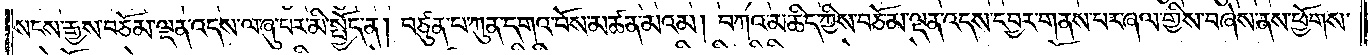སངས་རྒྱས་བཅོམ་ལྡན་འདས་ལ་ཞུ་བར་མི་སྤྱོད་ན། བཙུན་པ་ཀུན་དགའ་བོས་མཚན་མའམ། བཀའ་མཆིད་ཀྱིས་བཅོམ་ལྡན་འདས་དབྱར་གནས་པར་ཞལ་གྱིས་བཞེས་ནས་ཕྱོགས་
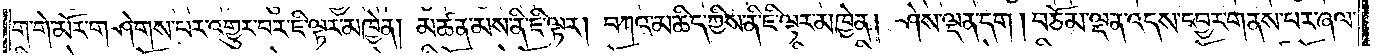ག་གེ་མོར་གཤེགས་པར་འགྱུར་བར་ཇི་ལྟར་མཁྱེན། མཚན་མས་ནི་ཇི་ལྟར། བཀའ་མཆིད་ཀྱིས་ནི་ཇི་ལྟར་མཁྱེན། ཤེས་ལྡན་དག །བཅོམ་ལྡན་འདས་དབྱར་གནས་པར་ཞལ་
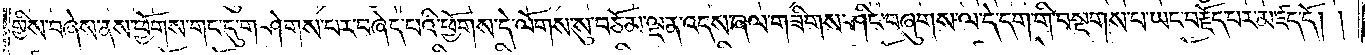གྱིས་བཞེས་ནས་ཕྱོགས་གང་དུ་གཤེགས་པར་བཞེད་པའི་ཕྱོགས་དེ་ལོགས་སུ་བཅོམ་ལྡན་འདས་ཞལ་གཟིགས་ཤིང་བཞུགས་ལ་དེ་དག་གི་བསྔགས་པ་ཡང་བརྗོད་པར་མཛད་དོ། །
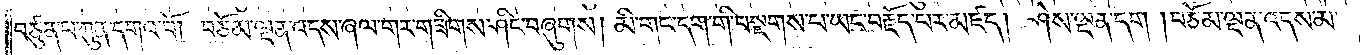བཙུན་པ་ཀུན་དགའ་བོ། བཅོམ་ལྡན་འདས་ཞལ་གར་གཟིགས་ཤིང་བཞུགས། མི་གང་དག་གི་བསྔགས་པ་ཡང་བརྗོད་པར་མཛད། ཤེས་ལྡན་དག །བཅོམ་ལྡན་འདས་མ་
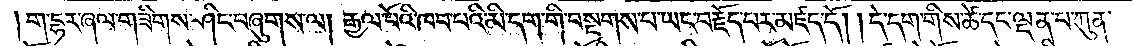ག་དྷར་ཞལ་གཟིགས་ཤིང་བཞུགས་ལ། རྒྱལ་པོའི་ཁབ་པའི་མི་དག་གི་བསྔགས་པ་ཡང་བརྗོད་པར་མཛད་དོ། །དེ་དག་གིས་ཚེ་དང་ལྡན་པ་ཀུན་
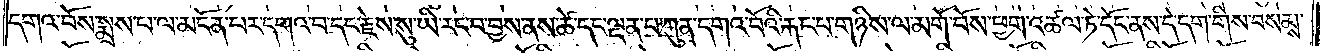དགའ་བོས་སྨྲས་པ་ལ་མངོན་པར་དགའ་བ་དང་རྗེས་སུ་ཡི་རང་བ་བྱས་ནས་ཚེ་དང་ལྡན་པ་ཀུན་དགའ་བོའི་རྐང་པ་གཉིས་ལ་མགོ་བོས་ཕྱག་འཚལ་ཏེ་དོང་ནས་དེ་དག་གིས་བསམས་
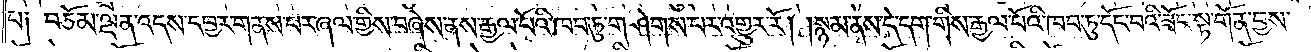པ། བཅོམ་ལྡན་འདས་དབྱར་གནས་པར་ཞལ་གྱིས་བཞེས་ནས་རྒྱལ་པོའི་ཁབ་ཏུ་གཤེགས་པར་འགྱུར་རོ། །སྙམ་ནས་དེ་དག་གིས་རྒྱལ་པོའི་ཁབ་ཏུ་དོང་བའི་ཟོང་སྟ་གོན་བྱས་
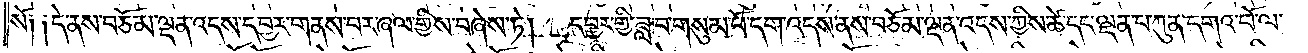སོ༑ ༑དེ་ནས་བཅོམ་ལྡན་འདས་དབྱར་གནས་པར་ཞལ་གྱིས་བཞེས་ཏེ། དབྱར་གྱི་ཟླ་བ་གསུམ་པོ་དག་འདས་ནས་བཅོམ་ལྡན་འདས་ཀྱིས་ཚེ་དང་ལྡན་པ་ཀུན་དགའ་བོ་ལ་
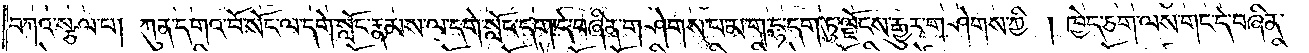བཀའ་སྩལ་པ། ཀུན་དགའ་བོ་སོང་ལ་དགེ་སློང་རྣམས་ལ་དགེ་སློང་དག་དེ་བཞིན་གཤེགས་པ་མ་ག་དྷ་དག་ཏུ་ལྗོངས་རྒྱུར་གཤེགས་ཀྱི། ཁྱེད་ཅག་ལས་གང་དེ་བཞིན་
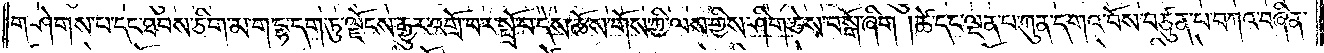གཤེགས་པ་དང་ཐབས་ཅིག་མ་ག་དྷ་དག་ཏུ་ལྗོངས་རྒྱུར་འགྲོ་བར་སྤྲོ་བ་དེས་ཆོས་གོས་ཀྱི་ལས་ཀྱིས་ཤིག་ཅེས་བསྒོ་ཞིག །ཚེ་དང་ལྡན་པ་ཀུན་དགའ་བོས་བཙུན་པ་བཀའ་བཞིན་
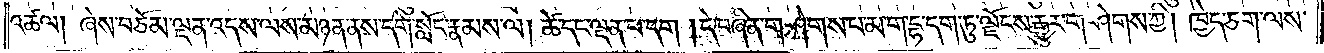འཚལ། ཞེས་བཅོམ་ལྡན་འདས་ལས་མཉན་ནས་དགེ་སློང་རྣམས་ལ། ཚེ་དང་ལྡན་པ་དག །དེ་བཞིན་གཤེགས་པ་མ་ག་དྷ་དག་ཏུ་ལྗོངས་རྒྱུར་གཤེགས་ཀྱི། ཁྱེད་ཅག་ལས་
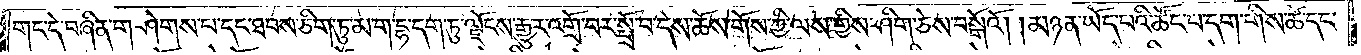གང་དེ་བཞིན་གཤེགས་པ་དང་ཐབས་ཅིག་ཏུ་མ་ག་དྷ་དག་ཏུ་ལྗོངས་རྒྱུར་འགྲོ་བར་སྤྲོ་བ་དེས་ཆོས་གོས་ཀྱི་ལས་གྱིས་ཤིག་ཅེས་བསྒོའོ། །མཉན་ཡོད་པའི་ཚོང་པ་དག་གིས་ཚེ་དང་
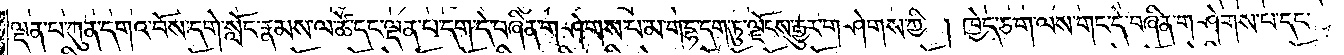ལྡན་པ་ཀུན་དགའ་བོས་དགེ་སློང་རྣམས་ལ་ཚེ་དང་ལྡན་པ་དག་དེ་བཞིན་གཤེགས་པ་མ་ག་དྷ་དག་ཏུ་ལྗོངས་རྒྱུར་གཤེགས་ཀྱི ། ཁྱེད་ཅག་ལས་གང་དེ་བཞིན་གཤེགས་པ་དང་
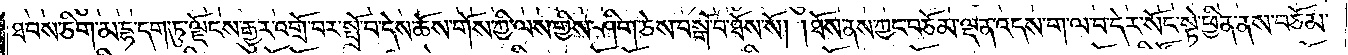ཐབས་ཅིག་མ་དྷ་དག་ཏུ་ལྗོངས་རྒྱུར་འགྲོ་བར་སྤྲོ་བ་དེས་ཆོས་གོས་ཀྱི་ལས་གྱིས་ཤིག་ཅེས་བསྒོ་བ་ཐོས་སོ། །ཐོས་ནས་ཀྱང་བཅོམ་ལྡན་འདས་ག་ལ་བ་དེར་སོང་སྟེ་ཕྱིན་ནས་བཅོམ་
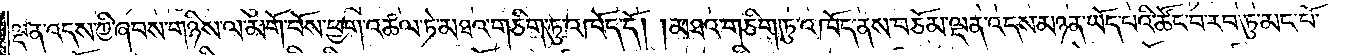ལྡན་འདས་ཀྱི་ཞབས་གཉིས་ལ་མགོ་བོས་ཕྱག་འཚལ་ཏེ་མཐའ་གཅིག་ཏུ་འཁོད་དོ། །མཐའ་གཅིག་ཏུ་འཁོད་ནས་བཅོམ་ལྡན་འདས་མཉན་ཡོད་པའི་ཚོང་བ་རབ་ཏུ་མང་པོ་
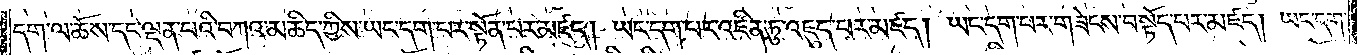དག་ལ་ཆོས་དང་ལྡན་པའི་བཀའ་མཆིད་ཀྱིས་ཡང་དག་པར་སྟོན་པར་མཛད། ཡང་དག་པར་འཛིན་ཏུ་འཇུད་པར་མཛད། ཡང་དག་པར་གཟེངས་བསྟོད་པར་མཛད། ཡང་དག་
